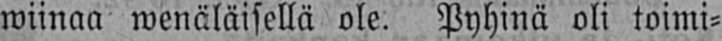wiinaa wenäläisellä ole. Pyhinä oli toimi-
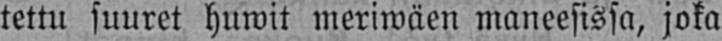tettu suuret huwit meriwäen maneesissa, joka
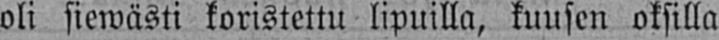oli siewästi koristettu lipuilla, kuusen oksilla
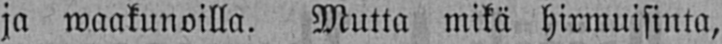ja waakunoilla. Mutta mikä hirmuisinta,
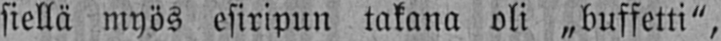siellä myös esiripun takana oli „buffetti",
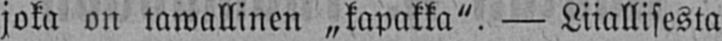joka on tawallinen „kapakka". — Liiallisesta
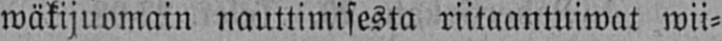wäkijuomain nauttimisesta riitaantuiwat wii-
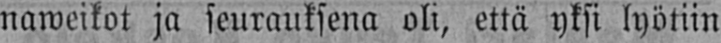naweikot ja seurauksena oli, että yksi lyötiin
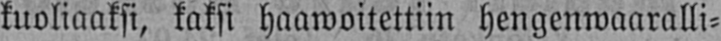kuoliaaksi, kaksi haawoitettiin hengenwaaralli-
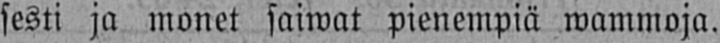sesti ja monet saiwat pienempiä wammoja.
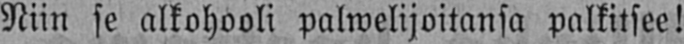Niin se alkohooli palwelijoitansa palkitsee!
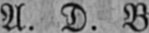A. D. B.
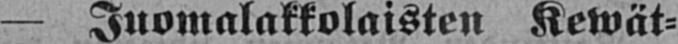— Juomalakkolaisten Kewät-
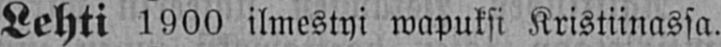Lehti 1900 ilmestyi wapuksi Kristiinassa.
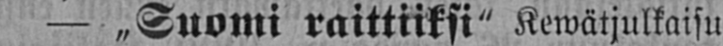— ˶ Suomi raittiiksi" Kewätjulkaisu
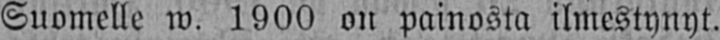Suomelle w. 1900 on painosta ilmestynyt.
